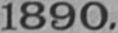1890.
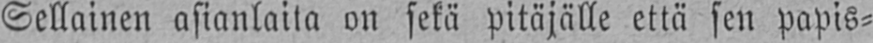Sellainen asianlaita on sekä pitäjälle että sen papis-
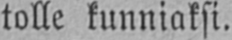tolle kunniaksi.
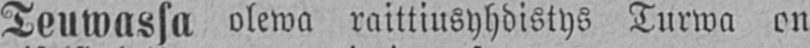Teuwassa olewa raittiusyhdistys Turwa on
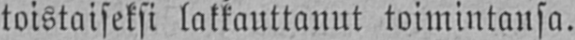toistaiseksi lakkauttanut toimintansa.
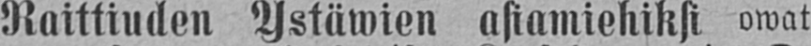Raittiuden Ystäwien asiamiehiksi owat
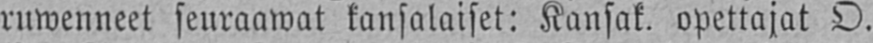ruwenneet seuraawat kansalaiset: Kansak. opettajat O.
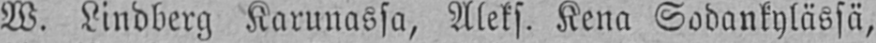W. Lindberg Karunassa, Aleks. Kena Sodankylässä,
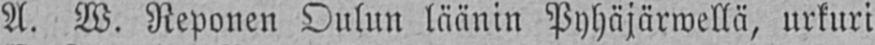A. W. Reponen Oulun läänin Pyhäjärwellä, urkuri
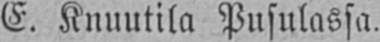E. Knuutila Pusulassa.
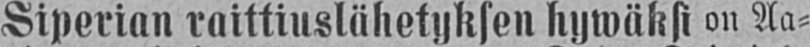Siperian raittiuslähetyksen hywäksi on Aa-
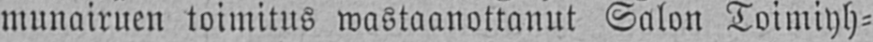munairuen toimitus wastaanottanut Salon Toimiyh-
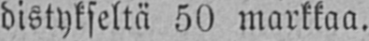distykseltä 50 markkaa.
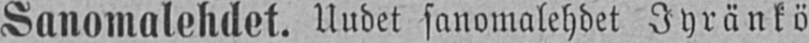Sanomalehdet. Uudet sanomalehdet Jyränkö
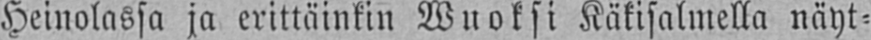Heinolassa ja erittäinkin Wuoksi Käkisalmella näyt-
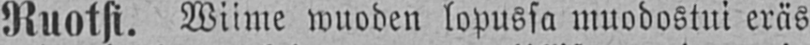Ruotsi. Wiime wuoden lopussa muodostui eräs
